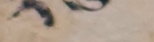༢༦
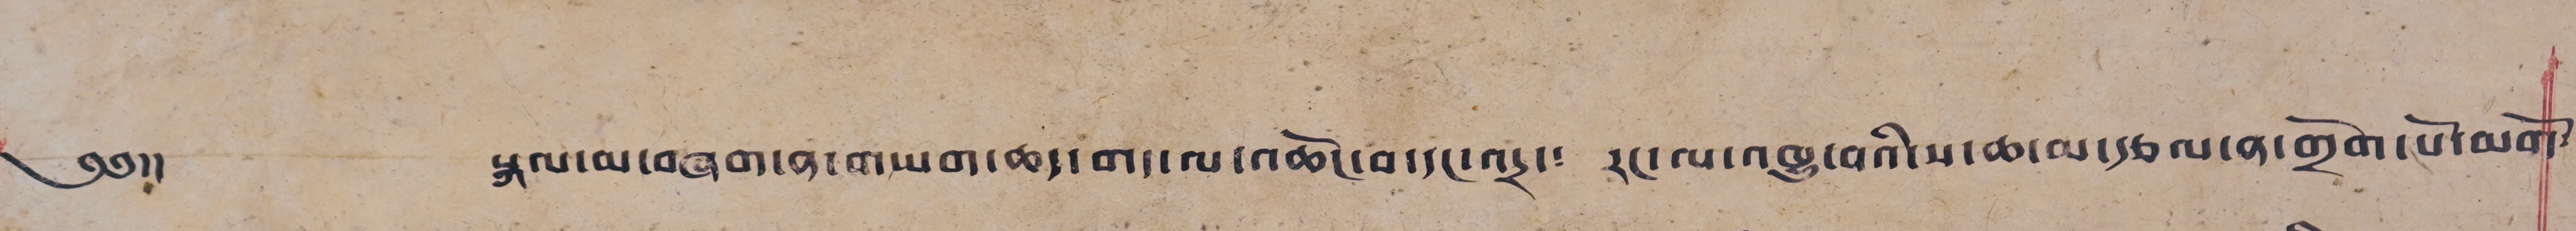༄༅།། སྐལ་མ་བཞག་ན་གཡག་ཆད་གད་ལ་འཆོང་བ་དང་འདྲ་༴ རང་ལ་འཁྱུ་བའི་ས་ཆ་མ་རྩལ་ན་གྲོག་པོ་མགོ༴
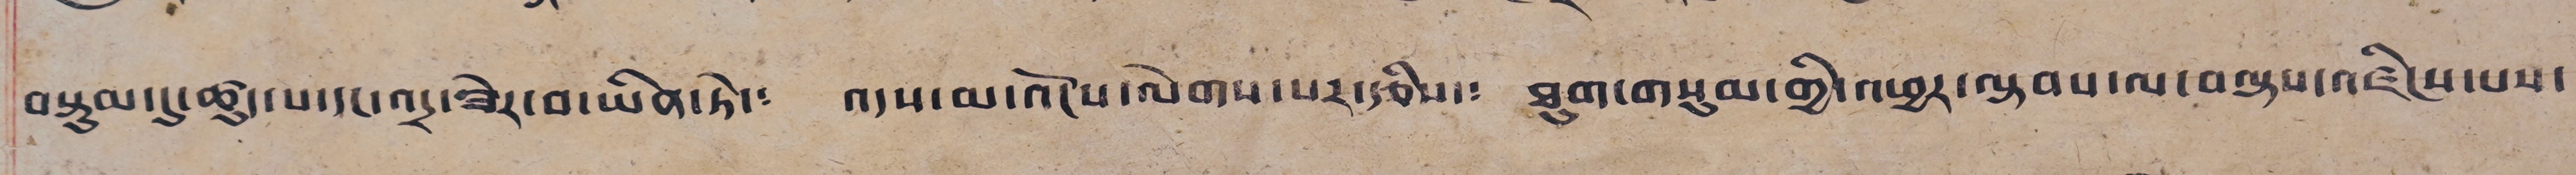བསྡུམ་དུ་ཚུད་པ་དང་འདྲ་ཟེར་བ་ཡིན་ཏེ་༴ འདས་མ་འོངས་ལེགས་པར་རྩིས་༴ ཐུག་གསུམ་གྱི་འཕྱར་ལྟབས་ལ་བལྟས་འཛིངས་པས་
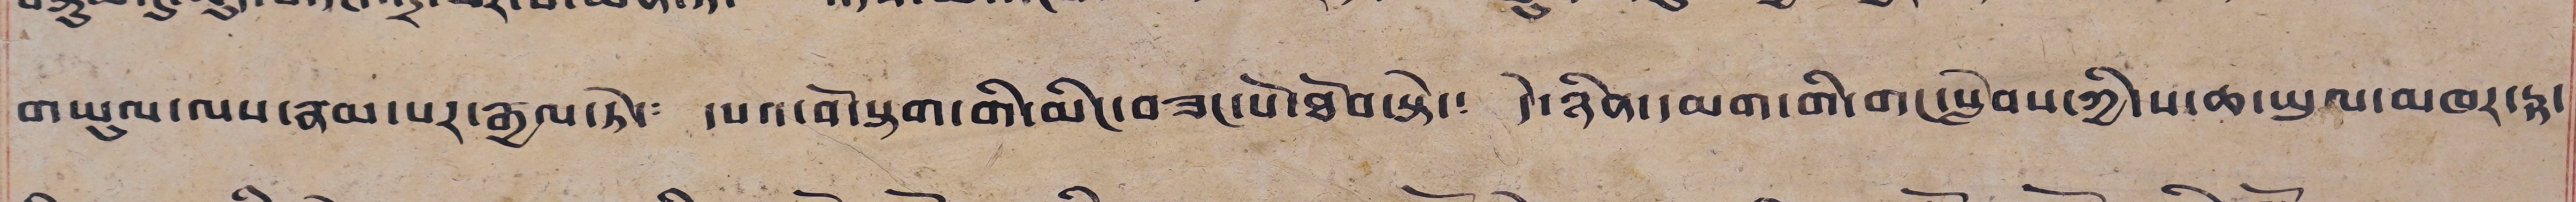གཡུལ་ལས་རམ་པར་རྒྱལ་ཏེ་༴ དཔའ་བོ་སྟག་གི་མིང་བཟང་པོ་ཐོབ་སྟེ་༴ དེ་ཉིན་དམག་གི་གང་སློབས་ཀྱི་ས་ཆ་ཡུལ་མཁར་རྟ་
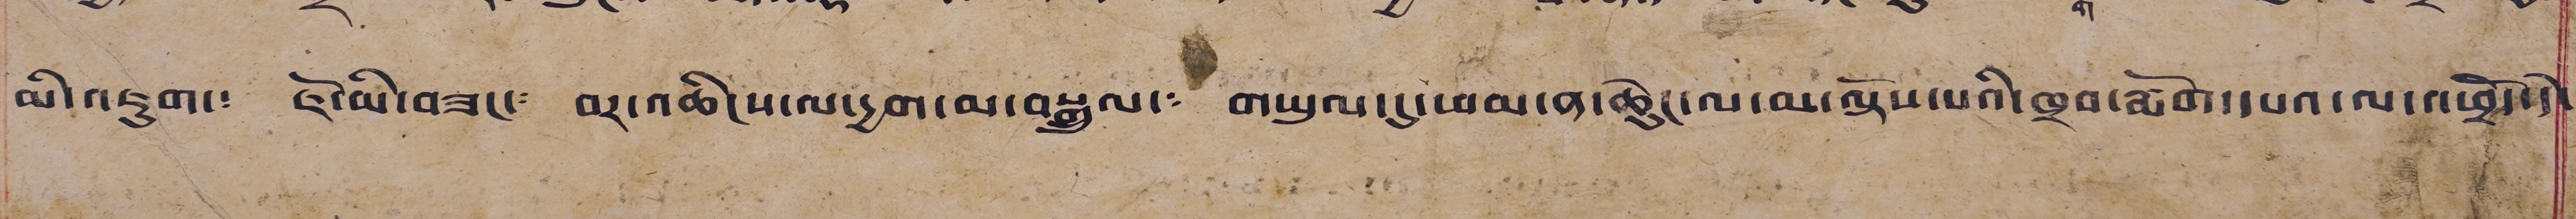མི་འཇུག་༴ ཇོ་མི་བཟང་༴ བར་འཆིངས་ལ་དྱག་མ་བསྒྲུལ་༴ གཡུལ་དུ་ཕམ་ན་ཆེུང་ལ་མ་ལྟོས་པའི་ཁྲབ་རྨོག་དཔའ་ལ་འཕྲོད་དེ་
